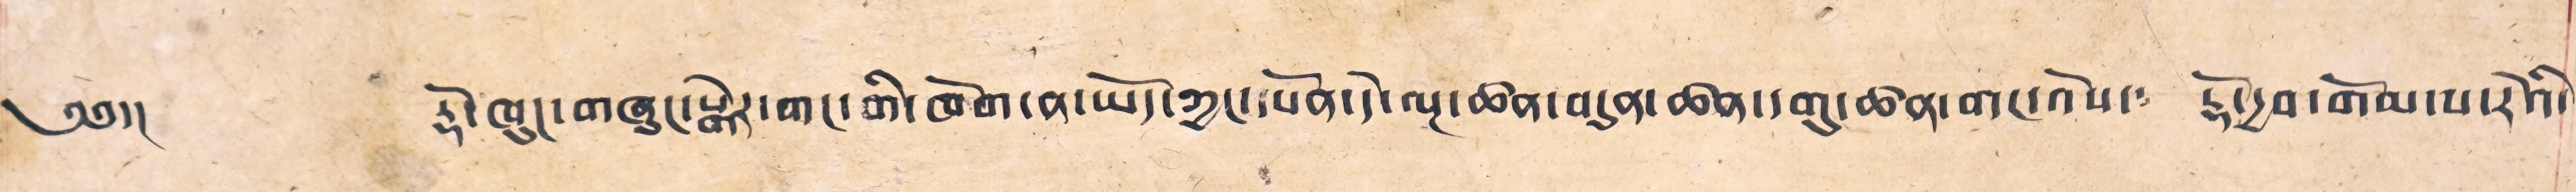༄༅།། རྡོ་ཁུང་གཞུང་སྒེར་གང་གི་ཁོག་ན་ཡོད་ཀྱང་དཔོན་དེ་ལྔ་ཚན་བདུན་ཚན་དགུ་ཚན་གང་འོས་༴ རྡོ་དྱབ་གོམ་པ་རེའི་
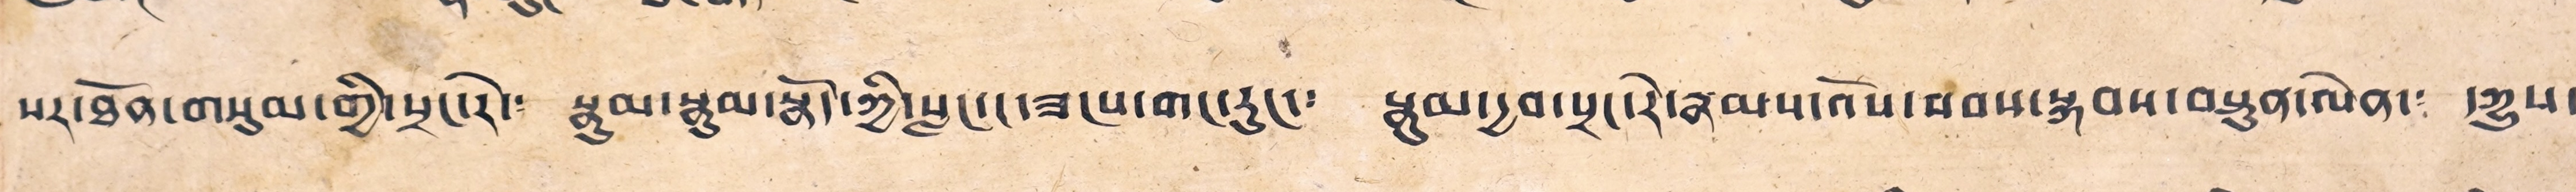པར་ཐོན་གསུམ་གྱི་སྲང་རེ་༴ སྣུམ་སྣུམ་སྣོད་ཀྱི་སླང་ང་ཟངས་གང་རུང་༴ སྣུམ་དྱབ་སྲང་རེ་རྣམས་འོས་བབས་སྐབས་བསྟུན་ལེན་༴ དཀྱུས་
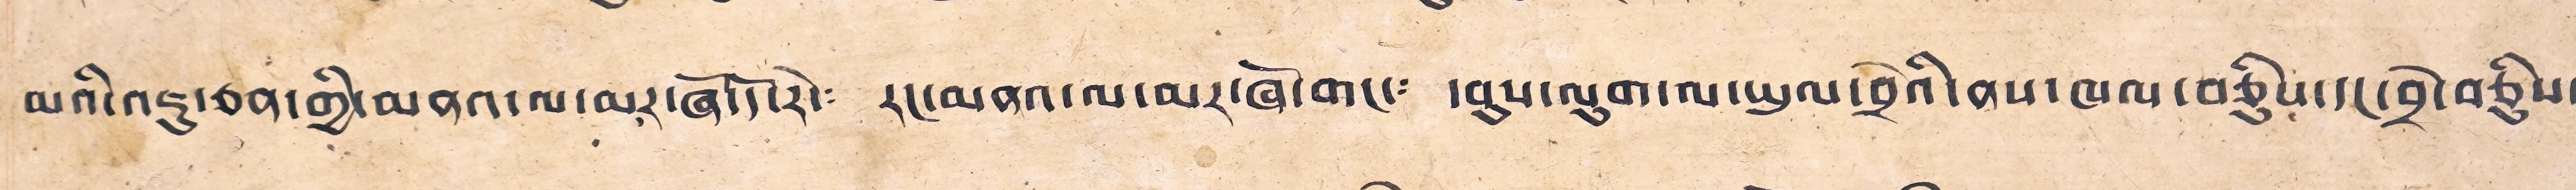མའི་འཇུ་ཅན་གྱི་མནའ་ལ་མར་ཞོ་དོ་རེ་༴ རང་མནའ་ལ་མར་ཞོ་གང་༴ དབུས་ལུག་ལ་ཡུལ་བྲེའི་ནས་ཁལ་བཅིུས་དང་བྲེ་བཅིུས༴
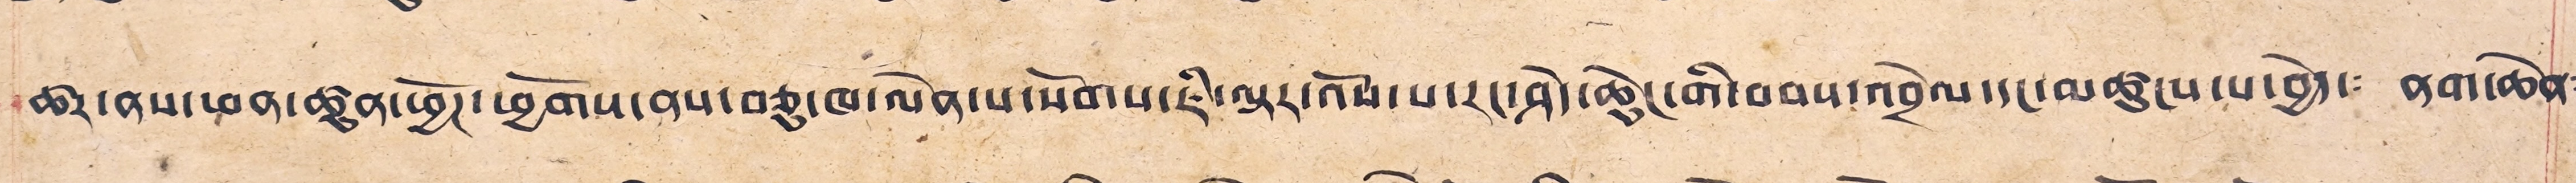ཚར་ནས་ཕན་ཚུན་ཕྱོཊ་ཕྱོགས་ནས་བཅུ་ཁ་ལེན་པ་སོགས་ཇི་ལྟར་འོས་པ་རང་ཤེད་ཆེུང་གི་བབས་འབྲེལ་དང་མཚངས་པ་བྱེད་༴ ནག་ཆེན༴
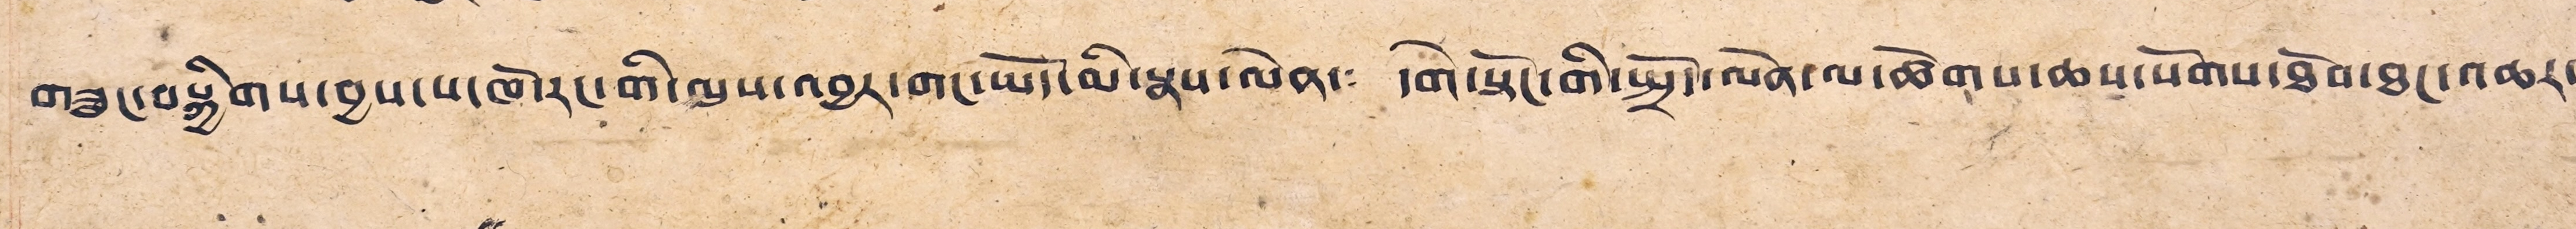གཟུང་བསྐྱིགས་བྱས་པ་ཁོ་རང་གི་ལུས་འབྱར་གང་ཡོད་མི་སྣས་ལེན་༴ དགེ་སྟོང་གི་སྤྲོད་ལེན་ལ་ཚོགས་ཆས་སོགས་ཐོབ་ཐང་འཆར་
